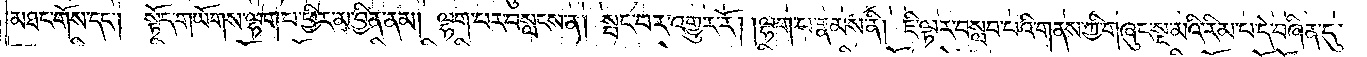མཐང་གོས་དང༌། སྟོད་གཡོགས་ལྷག་པ་ཕྱིར་མ་བྱིན་ནམ། ལྷག་པར་བསླངས་ན། སྤང་པར་འགྱུར་རོ། །ལྷག་པ་རྣམས་ནི། ཇི་ལྟར་བསླབ་པའི་གནས་ཀྱི་གཞུང་སྔ་མའི་རིམ་པ་དེ་བཞིན་དུ་
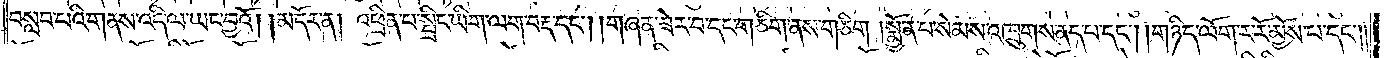བསླབ་པའི་གནས་འདི་ལ་ཡང་བྱའོ།    །མདོར་ན། འཕྲིན་པ་སྤྲིང་ཡིག་ལག་བརྡ་དང༌། །གཞན་ཟེར་བ་དང་གཅིག་ནས་གཅིག །སྨྱོན་པ་སེམས་འཁྲུགས་ནད་པ་དང༌། །གཉིད་ལོག་ར་རོ་མྱོས་པ་དང༌༎
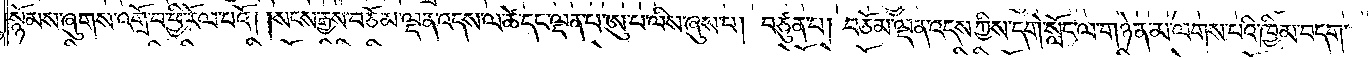སྙོམས་ཞུགས་འགྲོ་བ་ཕྱི་རོལ་པའོ། །སངས་རྒྱས་བཅོམ་ལྡན་འདས་ལ་ཚེ་དང་ལྡན་པ་ཨུ་པ་ལིས་ཞུས་པ། བཙུན་པ། བཅོམ་ལྡན་འདས་ཀྱིས་དགེ་སློང་ལ་གཉེན་མ་ལགས་པའི་ཁྱིམ་བདག་
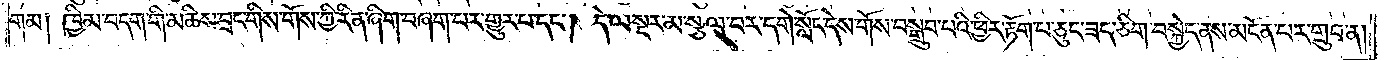གམ། ཁྱིམ་བདག་གི་མཆིས་བྲང་གིས་གོས་ཀྱི་རིན་ཞིག་བཞག་པར་གྱུར་པ་དང༌། དེ་ལ་སྔར་མ་སྩལ་བར་དགེ་སློང་དེས་གོས་བསྒྲུབ་པའི་ཕྱིར་རྟོག་པ་ཅུང་ཟད་ཅིག་བསྐྱེད་ནས་མངོན་པར་གྲུབ་ན།
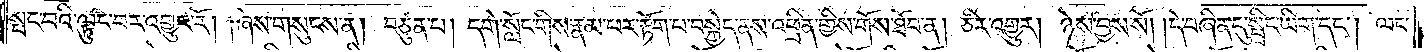སྤང་བའི་ལྟུང་བར་འགྱུར་རོ། །ཞེས་གསུངས་ན། བཙུན་པ། དགེ་སློང་གིས་རྣམ་པར་རྟོག་པ་བསྐྱེད་ནས་འཕྲིན་གྱིས་གོས་ཐོབ་ན། ཅིར་འགྱུར། ཉེས་བྱས་སོ། །དེ་བཞིན་དུ་སྤྲིང་ཡིག་དང༌། ལག་
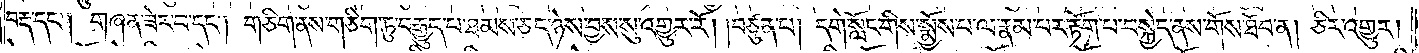བརྡ་དང༌། གཞན་ཟེར་བ་དང༌། གཅིག་ནས་གཅིག་ཏུ་བརྒྱུད་པ་ཐམས་ཅད་ཉེས་བྱས་སུ་འགྱུར་རོ། །བཙུན་པ། དགེ་སློང་གིས་སྨྱོས་པ་ལ་རྣམ་པར་རྟོག་པ་བསྐྱེད་ནས་གོས་ཐོབ་ན། ཅིར་འགྱུར།
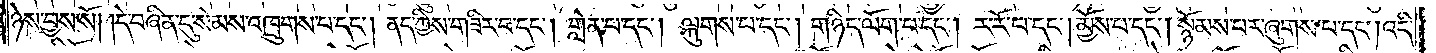ཉེས་བྱས་སོ། །དེ་བཞིན་དུ་སེམས་འཁྲུགས་པ་དང༌། ནད་ཀྱིས་གཟིར་བ་དང༌། གླེན་པ་དང༌། ལྐུགས་པ་དང༌། གཉིད་ལོག་པ་དང༌། ར་རོ་བ་དང༌། མྱོས་པ་དང༌། སྙོམས་པར་ཞུགས་པ་དང༌། འདི་
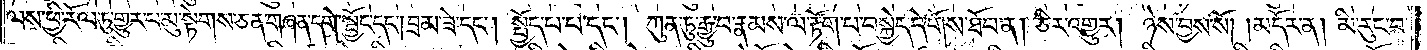ལས་ཕྱི་རོལ་ཏུ་གྱུར་པ་མུ་སྟེགས་ཅན་གཞན་དགེ་སྦྱོང་དང༌། བྲམ་ཟེ་དང༌། སྤྱོད་པ་པ་དང༌། ཀུན་ཏུ་རྒྱུ་བ་རྣམས་ལ་རྟོག་པ་བསྐྱེད་དེ་གོས་ཐོབ་ན། ཅིར་འགྱུར། ཉེས་བྱས་སོ། །མདོར་ན། མི་རུང་བ་
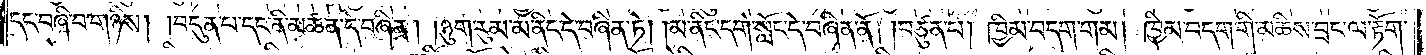དང་བཞི་བ་གཉིས། །བདུན་པ་དང་ནི་མཚན་དེ་བཞིན། །ཉུག་རུམ་མ་ནིང་དེ་བཞིན་ཏེ། །མ་ནིང་དགེ་སློང་དེ་བཞིན་ནོ། །བཙུན་པ། ཁྱིམ་བདག་གམ། ཁྱིམ་བདག་གི་མཆིས་བྲང་ལ་རྟོག་
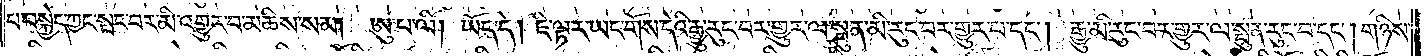པ་བསྐྱེད་ཀྱང་སྤང་བར་མི་འགྱུར་བ་མཆིས་སམ། ཨུ་པ་ལི། ཡོད་དེ། ཇི་ལྟར་ཡང་གོས་དེའི་རྒྱུ་རུང་བར་གྱུར་ལ་སྤུན་མི་རུང་བར་གྱུར་པ་དང༌། རྒྱུ་མི་རུང་བར་གྱུར་ལ་སྤུན་རུང་བ་དང༌། གཉིས་
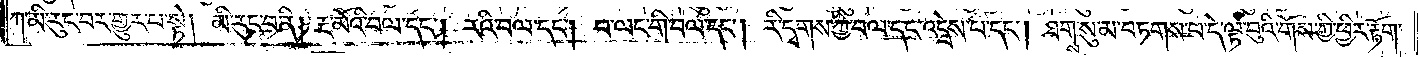ཀ་མི་རུང་བར་གྱུར་པ་སྟེ། མི་རུང་བ་ནི། རྔ་མོའི་བལ་དང༌། རའི་བལ་དང༌། བ་ལང་གི་བལ་དང༌། རི་དྭགས་ཀྱི་བལ་དང་འདྲེས་པ་དང༌། ཐགས་སུ་མ་བཏགས་པ་དེ་ལྟ་བུའི་གོས་ཀྱི་ཕྱིར་རྟོག་
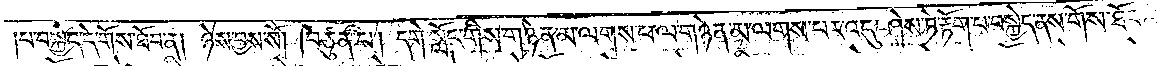།པ་བསྐྱེད་དེ་གོས་ཐོབ་ན། ཉེས་བྱས་སོ། །བཙུན་པ། དགེ་སློང་གིས་གཉེན་མ་ལགས་པ་ལ་གཉེན་མ་ལགས་པར་འདུ་ཤེས་ཏེ་རྟོག་པ་བསྐྱེད་ནས་གོས་ཐོབ་ན།
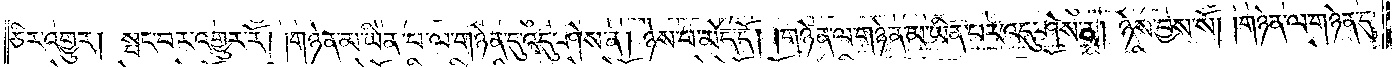ཅིར་འགྱུར། སྤང་བར་འགྱུར་རོ། །གཉེན་མ་ཡིན་པ་ལ་གཉེན་དུ་འདུ་ཤེས་ན། ཉེས་པ་མེད་དོ། །གཉེན་ལ་གཉེན་མ་ཡིན་པར་འདུ་ཤེས་ན། ཉེས་བྱས་སོ། །གཉེན་ལ་གཉེན་དུ་
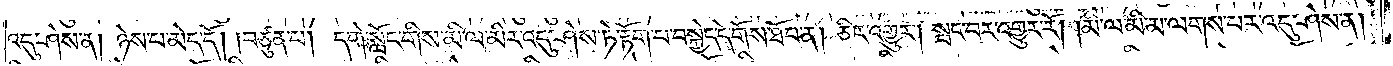འདུ་ཤེས་ན། ཉེས་པ་མེད་དོ། །བཙུན་པ། དགེ་སློང་གིས་མི་ལ་མིར་འདུ་ཤེས་ཏེ་རྟོག་པ་བསྐྱེད་དེ་གོས་ཐོབ་ན། ཅིར་འགྱུར། སྤང་བར་འགྱུར་རོ། །མི་ལ་མི་མ་ལགས་པར་འདུ་ཤེས་ན།
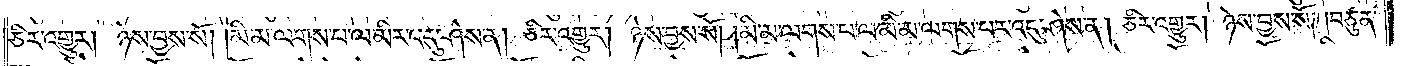ཅིར་འགྱུར། ཉེས་བྱས་སོ། །མི་མ་ལགས་པ་ལ་མིར་འདུ་ཤེས་ན། ཅིར་འགྱུར། ཉེས་བྱས་སོ། །མི་མ་ལགས་པ་ལ་མི་མ་ལགས་པར་འདུ་ཤེས་ན། ཅིར་འགྱུར། ཉེས་བྱས་སོ། །བཙུན་
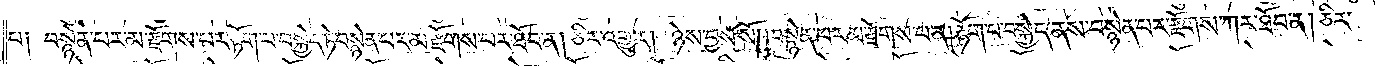པ། བསྙེན་པར་མ་རྫོགས་པར་རྟོག་པ་བསྐྱེད་ཏེ་བསྙེན་པར་མ་རྫོགས་པར་ཐོབ་ན། ཅིར་འགྱུར། ཉེས་བྱས་སོ། །བསྙེན་པར་མ་རྫོགས་པ་ན། རྟོགས་པ་བསྐྱེད་ནས་བསྙེན་པར་རྫོགས་ཀར་ཐོབ་ན། ཅིར་
